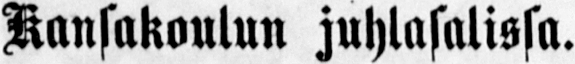Kansakoulun juhlasalissa.
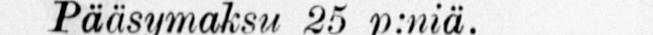Pääsymaksu 25 p:niä.
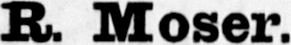R. Moser.
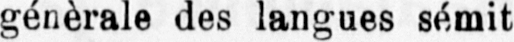générale des langues sémitiques».
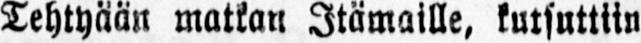Tehtyään matkan Itämaille, kutsuttiin
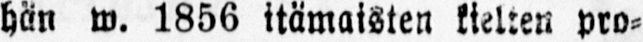hän w. 1856 itämaisten kielten pro-
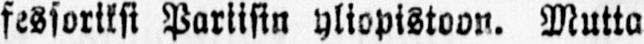fessoriksi Pariisin yliopistoon. Mutta
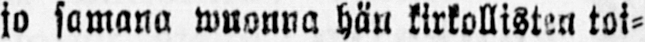jo samana wuonna hän kirkollisten toi-
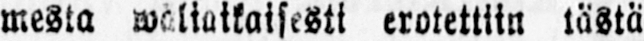mesta waliaikaisesti erotettiin tästä
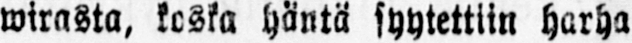wirasta, koska häntä syytettiin harha-
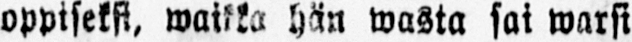oppiseksi, waikka hän wasta sai warsi
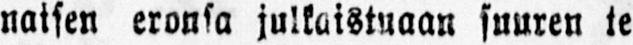naisen eronsa julkistuaan suuren te
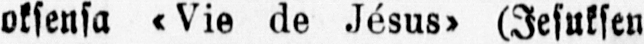oksensa «Vie de Jésus» (Jesuksen
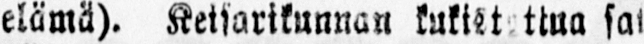elämä). Keisarikunnan kukist ttua sai
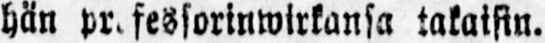hän professorinwirkansa takaisin.
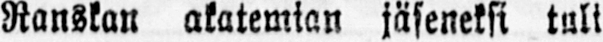Ranskan akatemian jäseneksi tuli
